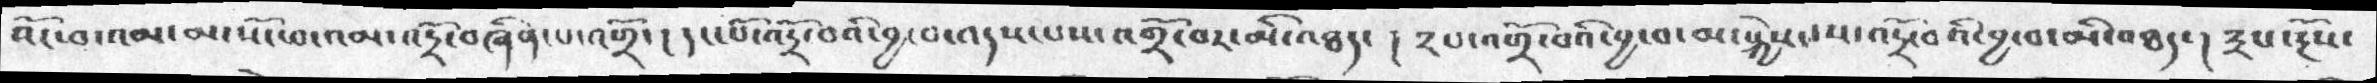འོང་བ་འམ་མ་སོང་བ་འམ་འདྲོ་བཞིན་པ་འགྲོ་།  དང་པོ་འདྲོ་བའི་བྱ་བ་འདས་པས་འགྲོ་བར་མི་འཐད་།  ༢པ་འགྲོ་བའི་བྱ་བ་མ་སྐྱེས་པས་འདྲོ་བའི་བྱ་བ་མི་འཐད་། ༣པ་རྔོས་
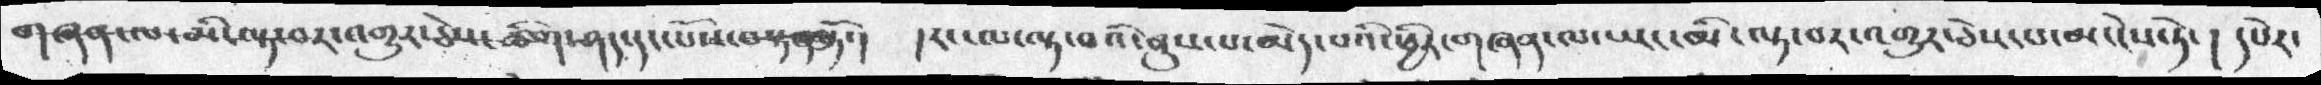གཞན་ལ་མི་ལྟ་བར་འགུར་ཅེས་ཚིག་ཤད་དང་པོས་བསྟན་ཏོ་། །རང་ལ་ལྟ་བའི་ནུས་པ་མེད་པའི་ཕྱིར་གཞན་ལ་ཡང་མི་ལྟ་བར་འགྱུར་ཅེས་པ་མ་ངེས་ཏེ་། དཔེར་
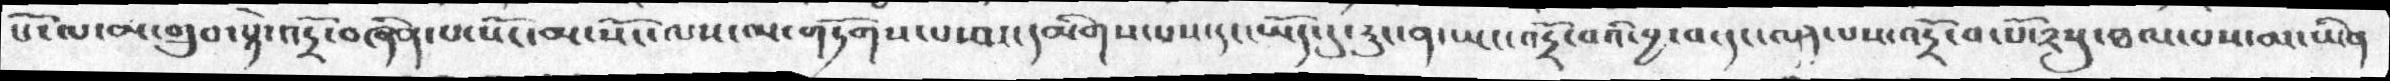པོ་ལ་མ་གྲུབ་སྟེ་འདྲོ་བཞིན་པ་སོང་མ་སོང་ལས་ལ་གཏོགས་པ་བར་དམིགས་པས་དང་ཡོད་དུ་རུང་ན་ཡང་འདྲོ་བའི་བྱ་བ་དང་ལན་པས་འདྲོ་བ་པོ་༢སུ་ཐལ་པས་མ་ཡིན
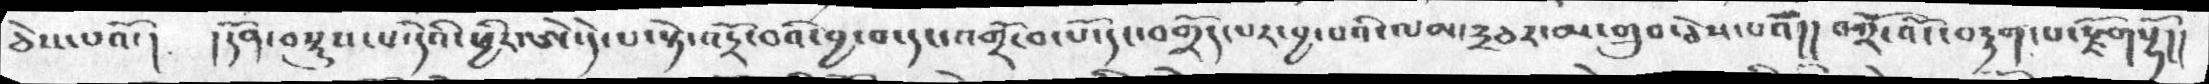ཅེས་པའོ་།  །དོན་བསྡུས་པ་དེའི་ཕྱིར་ཨེ་དེ་པ་སྟེ་འདྲོ་བའི་བྱ་བ་དང་འགྲོ་བ་པོ་དང་བགྲོད་པར་བྱ་བའི་ལམ་༣ཅར་མ་གྲུབ་ཅེས་པའོ།། འགྲོ་འོང་བརྟག་པ་རྫོགསྷོ།།
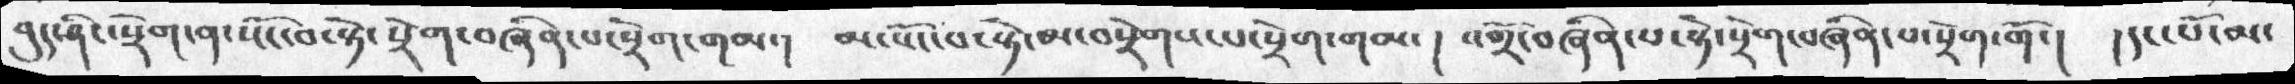བུད་ཤིང་སྲོག་ན་སོང་བ་སྟེ་སྲོག་བཞིན་པ་སྲེག་གམ་།  མ་སོང་བ་སྟེ་མ་བསྲེགས་པ་སྲེག་གམ་།  འགྲོ་བཞིན་པ་སྟེ་སྲེག་བཞིན་པ་སྲེག་གོ་།  །དང་པོ་མ་
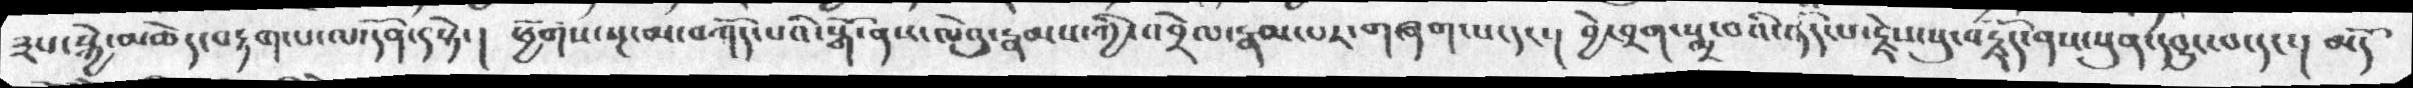༣པ་སྐྱེ་མཆེད་བརྟག་པ་ལ་དོན་ད་སྟེ་། ཕྱོགས་སྔ་མ་བཀོད་པའི་སྒོ་ནས་ལེའུ་རྣམས་ཀྱི་འབྲེལ་རྣམ་པར་གཞག་པ་དང་། བྱེ་བྲག་སྨྲ་བའི་འདོད་པ་རྗེས་སུ་བརྗོད་ནས་སུན་དབྱུང་བ་དང་། མདོ
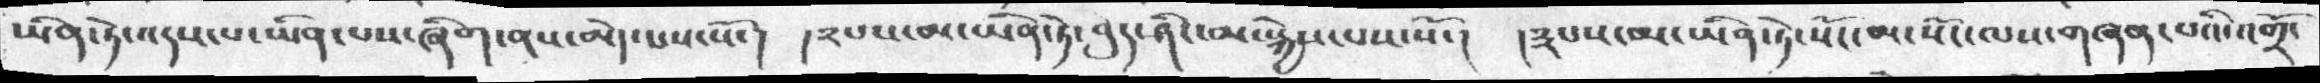ཡིན་ཏེ་འདས་པ་ཡིན་པས་ཞིག་ནས་མེད་པས་སོ་།  །༢པས་མ་ཡིན་ཏེ་བུད་ཤིང་མ་སྐྱེས་པས་སོ་།  །༣པས་མ་ཡིན་ཏེ་སོང་མ་སོང་ལས་གཞན་པའི་འགྲོ་
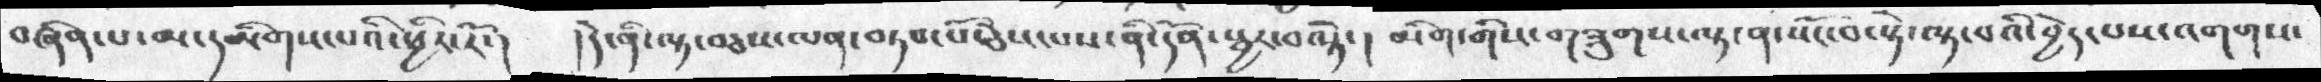བཞིན་པ་མ་དམིགས་པའི་ཕྱིར་རོ་།   །དེ་ནི་ལྟ་བཅས་ལན་བཏབ་པོ་ཅེས་པས་ནི་དོན་སྦྱར་བ་སྟེ་།  མིག་གིས་གཟུགས་ལྟ་ན་སོང་བ་སྟེ་ལྟ་བའི་བྱེད་པས་འགགས་
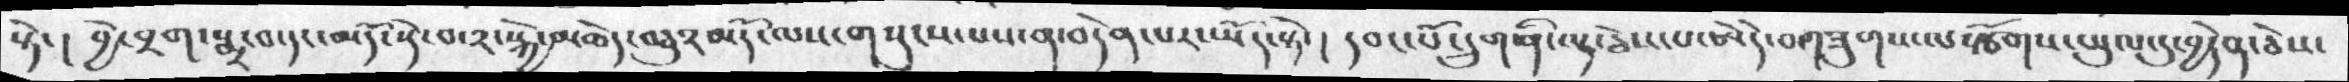སྟེ་། བྱེ་བྲག་སྨྲ་བ་དང་མདོ་སྡེ་པ་༢་སྐྱེ་མཆེད་བཅུ༢མདོ་ལས་གསུངས་པས་ན་བདེན་པར་ཡོད་སྟེ་། དབང་པོ་དྲུག་ནི་ལྟ་ཅེས་པ་ཨེདེ་བ་གཟུགས་ལ་སྩོགས་ཡུལ་དུ་བྱེདན་ཅེས་
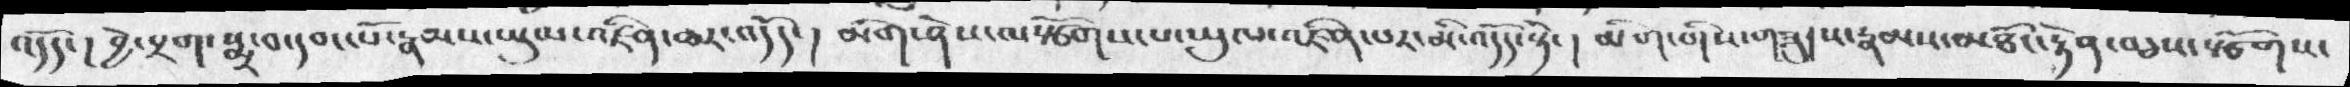འདོད་། བྱེ་བྲག་སྨྲ་བ་དབང་པོ་རྣམས་ཡུལ་འཛིན་ཆར་འདོད་། མིག་ཤེས་ལསྩོགས་ཡུལ་འཛིན་པར་མི་འདོད་སྟེ་། མིག་གིས་གཟུགས་རྣམས་མཐོང་རྟེན་བཅས་སྩོགས་
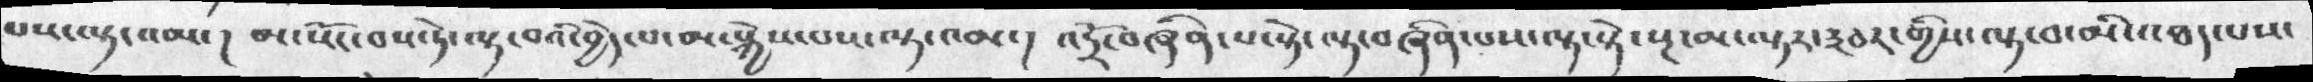པས་ལྟ་འམ་།  མ་སོང་བས་ཏེ་ལྟ་བའི་བྱེད་པ་མ་སྐྱེས་པས་ལྟ་འམ་། འདྲོ་བཞིན་པ་སྟེ་ལྟ་བཞིན་པས་ལྟ་སྟེ་སྔ་མ་ལྟར་༣བར་གྱིས་ལྟ་བ་མི་འཐད་པས་
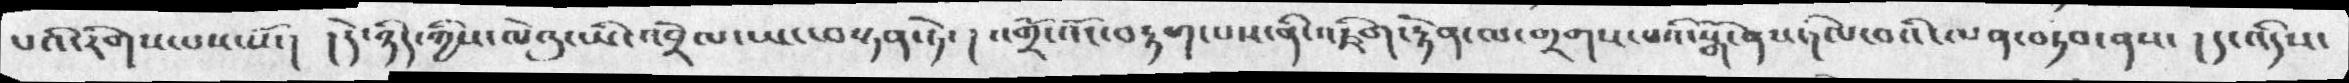པའི་རིགས་པས་སོ་། །དེ་ཉིད་ཀྱིས་ལེའུ་ཡི་འབྲེལ་ཡང་བསྟན་ཏེ་ ། འགྲོ་འོང་བརྟག་པས་ནི་འཇིག་རྟེན་ལ་གྲགས་པའི་སྒོ་ནས་རྒོལ་བའི་ལན་བཏབ་ནས་ ། ད་འདིས་
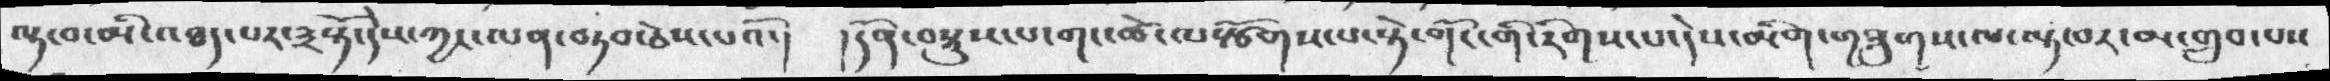ལྟ་བ་མི་འཐད་པར་༣སྟོ་དེས་ཀྱང་ལན་བཏབ་ཅེས་པའོ་། །དོན་བསྡུས་པ་གང་ཚེ་ལསྩོགས་པ་སྟེ་གོང་གི་རིགས་པ་དེས་མིག་གཟུགས་ལ་ལྟ་བར་མ་གྲུབ་པས
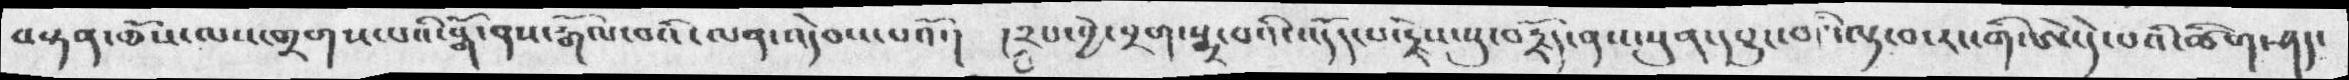བསྟན་ཆོས་ལས་གྲགས་པའི་སྒོ་ནས་རྒོལ་བའི་ལན་འདེབས་པའོ་།  །༢པ་བྱེ་བྲག་སྨྲ་བའི་འདོད་པ་རྗེས་སུ་བརྗོད་ནས་སུན་དབྱུང་བའི་ལྟ་བ་རང་གི་ཨེ་དེ་པའི་ཚིག་ཤད་
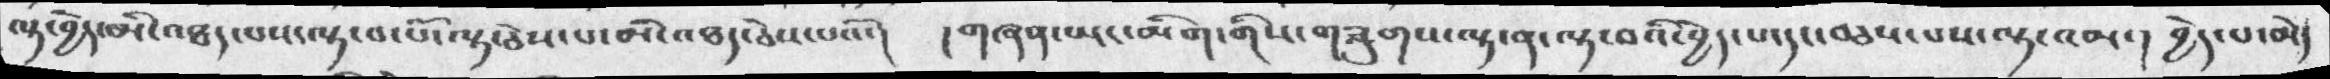ལྟ་བྱེད་མི་འཐད་པས་ལྟ་བ་པོ་ལྟ་ཅེས་པ་མི་འཐད་ཅེས་པའོ་།  །གཞན་ཡང་མིག་གིས་གཟུགས་ལྟ་ན་ལྟ་བའི་བྱེད་པ་དང་བཅས་པས་ལྟ་འམ་།  བྱེད་པ་མེད་
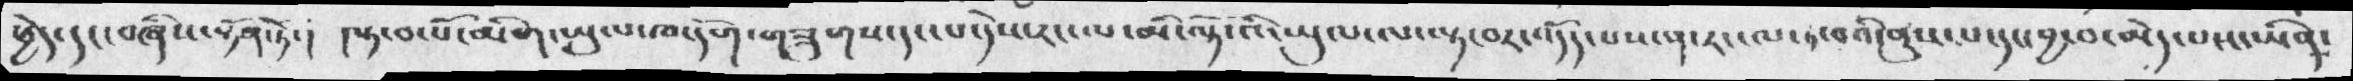ཕྱེད་དང་བཞིས་སྟོན་ཏོ་།  །སྟ་བ་པོ་མིག་ཡུལ་ཁ་དོག་གཟུགས་དང་པ་དེས་རང་ལ་མི་ལྟོ་འི་ཡུལ་ལ་ལྟ་བར་འདོད་པས་ན་རང་ལ་ཏ་བའི་ནུས་པ་དང་བྱ་བ་མེད་པས་ཡིན་
